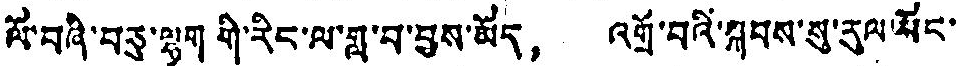ལོ་བཞི་བཅུ་ལྷག གི་རིང་ལ་གླུ་བ་བྱས་མོད， འགྲོ་བའི་སྐབས་སུ་རུལ་སོང་
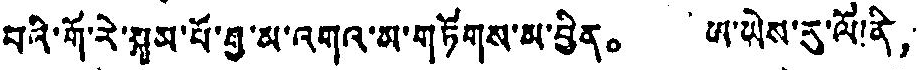བའི་གོ་རེ་སྐམ་པོ་རྒྱ་མ་འགའ་མ་གཏོགས་མ་བྱིན。 ཨ་ཡེས་རུ་ལོ་ནི，
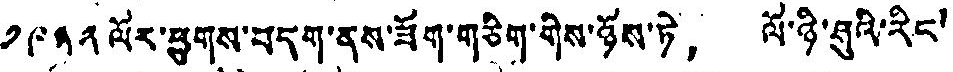༡༩༣༢ ལོར་ཕྱུགས་བདག་ནས་ཟོག་གཅིག་གིས་ཉོས་ཏེ， ལོ་ཉི་ཤུའི་རིང་
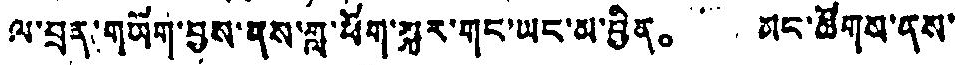ལ་བྲན་གཡོག་བྱས་ནས་གླ་ཕོག་སྐྱར་གང་ཡང་མ་བྱིན。 མང་ཚོགས་ནས་
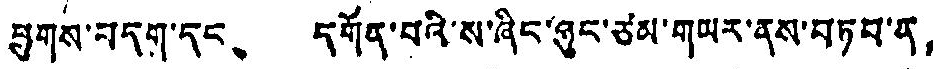ཕྱུགས་བདག་དང、 དགོན་པའི་ས་ཞིང་ཉུང་ཙམ་གཡར་ནས་བཏབ་ན，
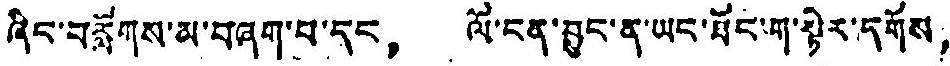ཞིང་བརློགས་མ་བཞག་པ་དང， ལོ་ངན་བྱུང་ན་ཡང་ཐོང་ག་སྟེར་དགོས，
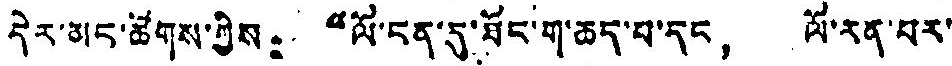དེར་མང་ཚོགས་ཀྱིས： “ལོ་ངན་དུ་ཐོང་ག་ཆད་པ་དང་། ལོ་རན་བར་
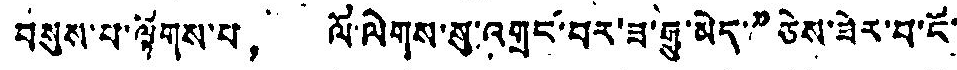བསུས་པ་ལྟོགས་པ， ལོ་ལེགས་སུ་འགྲང་བར་ཟ་རྒྱུ་མེད་”ཅེས་ཟེར་བ་ངོ་་་
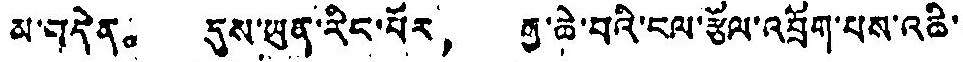མ་བདེན。 དུས་ཡུན་རིང་པོར， རྒྱ་ཆེ་བའི་ངལ་རྩོལ་འབོག་པས་འཆི་
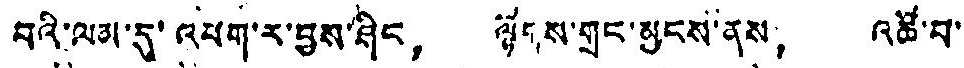བའི་ལམ་དུ་འཕག་ར་བྱས་ཤིང， ལྷོགས་གྲུང་མྱངས་ནས， འཚོ་བ་
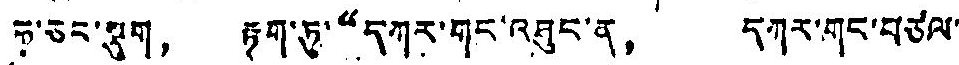ཧ་ཅང་སྡུག， རྟག་ཏུ་“དཀར་གང་འཐུང་ན， དཀར་གང་བཙལ་
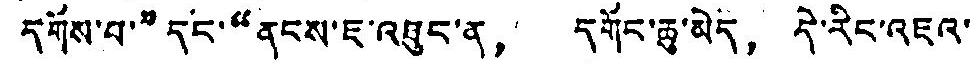དགོས་པ་”དང་“ནངས་ཇ་འཐུང་ན， དགོང་ཆུ་མེད， དེ་རིང་འཇའ་
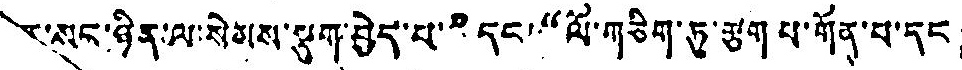ང་སུང་ཉིན་ལ་སེམས་སྡུག་བྱེད་པ་”དང་“ལོ་གཅིག་ཏུ་རྩག པ་གོན་པ་དང，
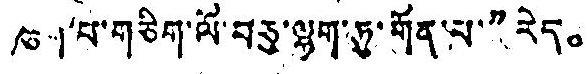ཞག་པ་གཅིག་ལོ་བཅུ་ལྷག་ཏུ་གོན་པ་”རེད。
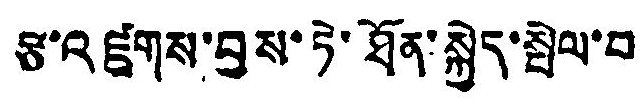རྩ་འཛུགས་བྱས་ཏེ་ཐོན་སྐྱེད་སྤེལ་བ
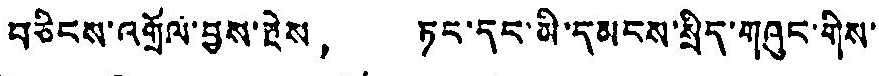བཅིངས་འགྲོལ་བྱས་རྗེས， ཏང་དང་མི་དམངས་སྲིད་གཞུང་གིས་
